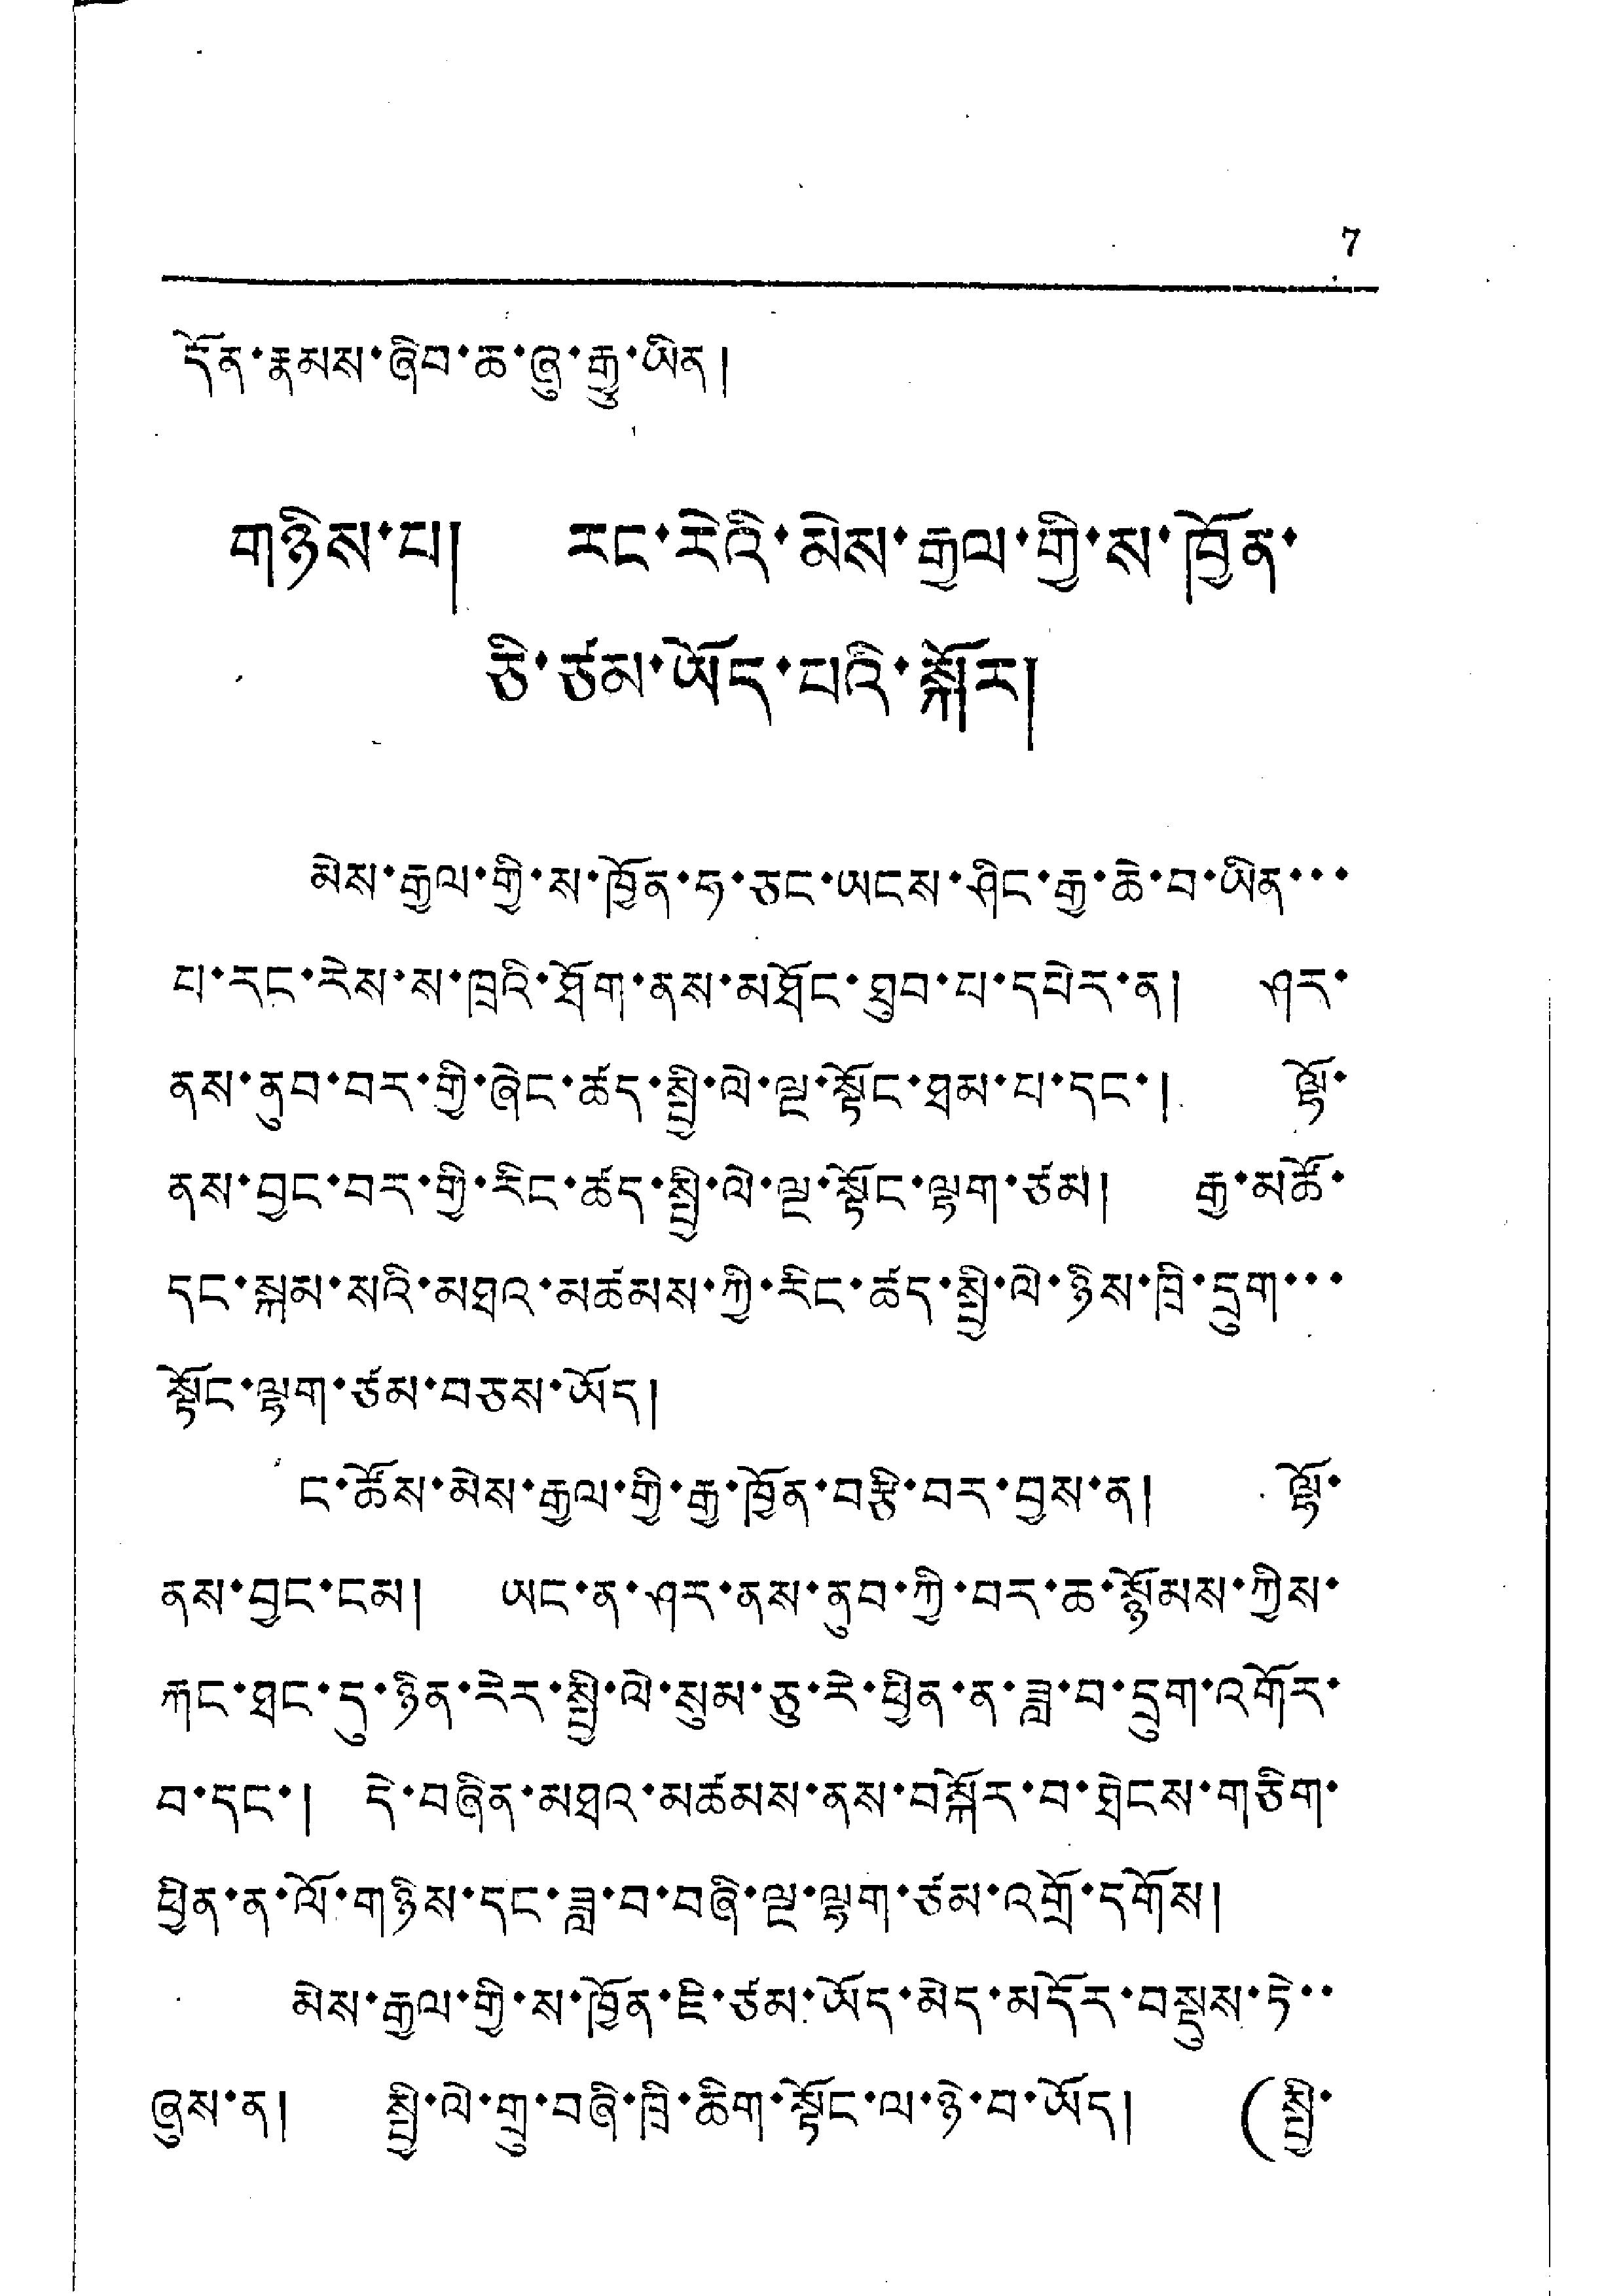7
དོན་རྣམས་ཞིབ་ཆ་ཞུ་རྒྱུ་ཡིན།
གཉིས་པ། རང་རེའི་མེས་རྒྱལ་གྱི་ས་ཁྱོན་
ཅི་ཙམ་ཡོད་པའི་སྐོར།
མེས་རྒྱལ་གྱི་ས་ཁྱོན་ཧ་ཅང་ཡངས་ཤིང་རྒྱ་ཆེ་བ་ཡིན་་་
པ་རང་རེས་ས་ཁྲའི་ཐོག་ནས་མཐོང་ཐུབ་པ་དཔེར་ན། ཤར་
ནས་ནུབ་བར་གྱི་ཞེང་ཚད་སྤྱི་ལེ་ལྔ་སྟོང་ཐམ་པ་དང་། ལྷོ་
ནས་བྱུང་བར་གྱི་རིང་ཚད་སྤྱི་ལེ་ལྔ་སྟོང་ལྷག་ཙམ། རྒྱ་མཚོ་
དང་སྐམ་སའི་མཐའ་མཚམས་ཀྱི་རིང་ཚད་སྤྱི་ལེ་ཉིས་ཁྲི་དྲུག་་་
སྟོང་ལྷག་ཙམ་བཅས་ཡོད།
ང་ཚོས་མེས་རྒྱལ་གྱི་རྒྱ་ཁྱོན་བརྩི་བར་བྱས་ན། ལྷོ་
ནས་བྱང་ངམ། ཡང་ན་ཤར་ནས་ནུབ་ཀྱི་བར་ཆ་སྙོམས་ཀྱིས་
རྐང་ཐང་དུ་ཉིན་རེར་སྤྱི་ལེ་སུམ་ཅུ་རེ་ཕྱིན་ན་ཟླ་བ་དྲུག་འགོར་
བ་དང་། དེ་བཞིན་མཐའ་མཚམས་ནས་བསྐོར་བ་ཐེངས་གཅིག་
ཕྱིན་ན་ལོ་གཉིས་དང་ཟླ་བ་བཞི་ལྔ་ལྷག་ཙམ་འགྲོ་དགོས།
མེས་རྒྱལ་གྱི་ས་ཁྱོན་ཇི་ཙམ་ཡོད་མེད་མདོར་བསྡུས་ཏེ་་
ཞུས་ན། སྤྱི་ལེ་གྲུ་བཞི་ཁྲི་ཆིག་སྟོང་ལ་ཉེ་བ་ཡོད། (སྤྱི་
